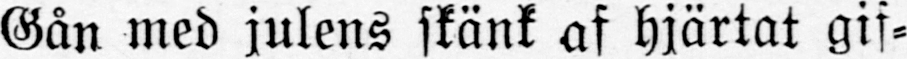Gån med julens skänk af hjärtat gif-
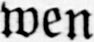wen
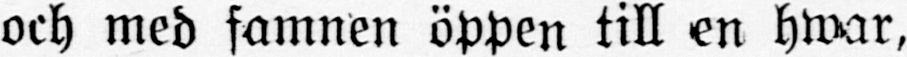och med famnen öppen till en hwar,
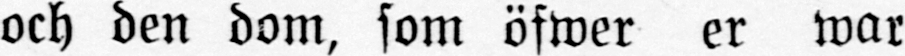och den dom, som öfwer er war
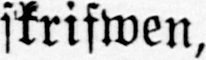skrifwen,
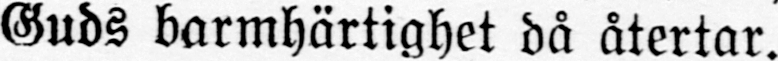Guds barmhärtighet då återtar.
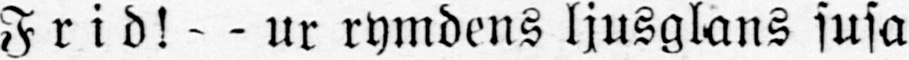Frid!- - ur rymdens ljusglans susa
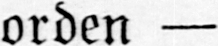orden —
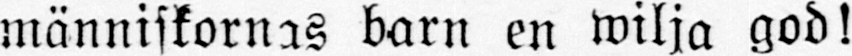människornas barn en wilja god!
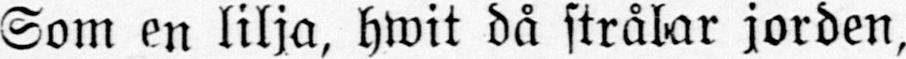Som en lilja, hwit då strålar jorden,
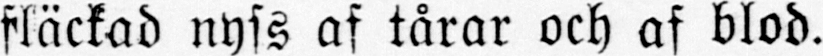fläckad nyss af tårar och af blod.
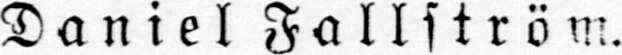Daniel Fallström.
